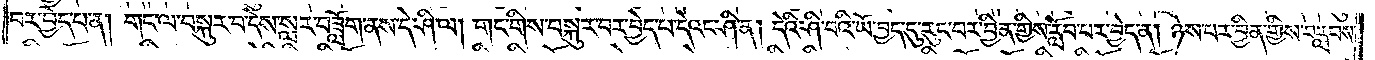པར་བྱེད་པ་ན། གང་ལ་བསྐུར་བ་དེས་སླར་བཟློག་ནས་དེ་ཤི་ལ། གང་གིས་བསྐུར་བར་བྱེད་པ་དེའང་ཤི་ན། དེའི་ཤི་བའི་ཡོ་བྱད་དུ་རུང་བར་བྱིན་གྱིས་རློབ་པར་བྱེད་ན། ཉེས་པར་བྱིན་གྱིས་བརླབས་
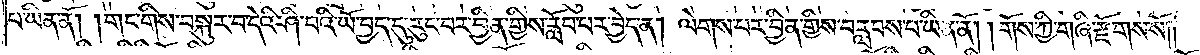པ་ཡིན་ནོ། །གང་གིས་བསྐུར་བ་དེའི་ཤི་བའི་ཡོ་བྱད་དུ་རུང་བར་བྱིན་གྱིས་རློབ་པར་བྱེད་ན། ལེགས་པར་བྱིན་གྱིས་བརླབས་པ་ཡིན་ནོ། །གོས་ཀྱི་གཞི་རྫོགས་སོ ༎
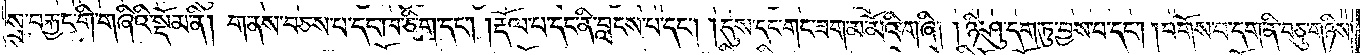སྲ་བརྐྱང་གི་གཞིའི་སྡོམ་ནི། གནས་བཅས་པ་དང་ཁ་ཅིག་དང༌། །རྡོལ་པ་དང་ནི་བླངས་པ་དང༌། །དུས་དང་གང་ཟག་མ་མོའི་གཞི། །ཉི་ཤུ་དག་ཏུ་བྱས་པ་དང༌། །བགོས་པ་དག་ནི་བཅུ་གཉིས་
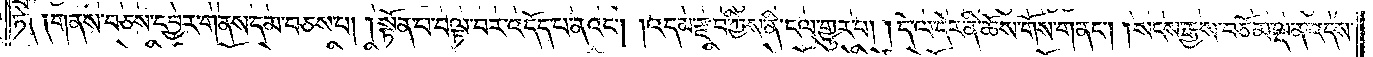ཏེ༑ ༑གནས་བཅས་དབྱར་གནས་དམ་བཅས་པ། །སྟོན་པ་བལྟ་བར་འདོད་པ་ནའང༌། །འདམ་རྫབ་ཀྱིས་ནི་ངལ་གྱུར་པ། །དེ་ལ་དེར་ནི་ཆོས་གོས་གནང༌། །སངས་རྒྱས་བཅོམ་ལྡན་འདས་
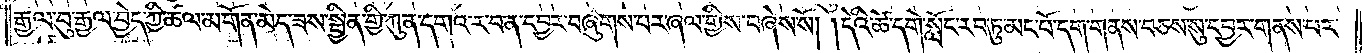རྒྱལ་བུ་རྒྱལ་བྱེད་ཀྱི་ཚལ་མགོན་མེད་ཟས་སྦྱིན་གྱི་ཀུན་དགའ་ར་བ་ན་དབྱར་བཞུགས་པར་ཞལ་གྱིས་བཞེས་སོ། །དེའི་ཚེ་དགེ་སློང་རབ་ཏུ་མང་པོ་དག་གནས་བཅས་སུ་དབྱར་གནས་པར་
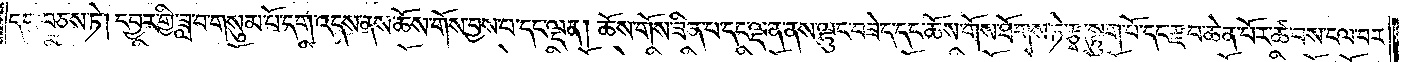དང་བཅས་ཏེ། དབྱར་གྱི་ཟླ་བ་གསུམ་པོ་དག་འདས་ནས་ཆོས་གོས་བྱས་པ་དང་ལྡན། ཆོས་གོས་ཟིན་པ་དང་ལྡན་ནས་ལྷུང་བཟེད་དང་ཆོས་གོས་ཐོགས་ཏེ་རྩྭ་སྟུག་པོ་དང་རྫབ་ཆེན་པོར་ཚ་བས་ངལ་བར་
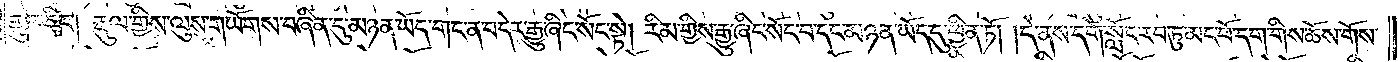གྱུར་ཅིང༌། རྡུལ་གྱིས་ལུས་གཡོགས་བཞིན་དུ་མཉན་ཡོད་གང་ན་བདེར་རྒྱུ་ཞིང་སོང་སྟེ། རིམ་གྱིས་རྒྱུ་ཞིང་སོང་བ་དང་མཉན་ཡོད་དུ་ཕྱིན་ཏོ། །དེ་ནས་དགེ་སློང་རབ་ཏུ་མང་པོ་དག་གིས་ཆོས་གོས་
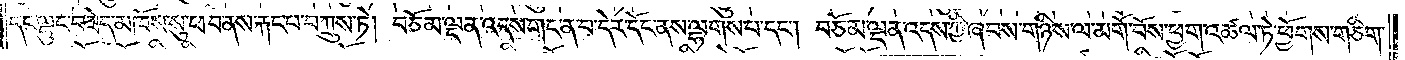དང་ལྷུང་བཟེད་མཁོས་སུ་ཕབ་ནས་རྐང་པ་བཀྲུས་ཏེ། བཅོམ་ལྡན་འདས་གང་ན་བ་དེར་དོང་ནས་ལྷགས་པ་དང༌། བཅོམ་ལྡན་འདས་ཀྱི་ཞབས་གཉིས་ལ་མགོ་བོས་ཕྱག་འཚལ་ཏེ་ཕྱོགས་གཅིག་
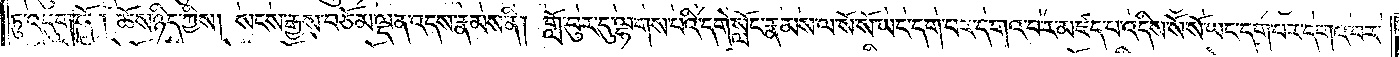ཏུ་འདུག་གོ །ཆོས་ཉིད་ཀྱིས། སངས་རྒྱས་བཅོམ་ལྡན་འདས་རྣམས་ནི། གློ་བུར་དུ་ལྷགས་པའི་དགེ་སློང་རྣམས་ལ་སོ་སོ་ཡང་དག་པར་དགའ་བར་མཛད་པ་འདིས་སོ་སོ་ཡང་དག་པར་དགའ་བར་
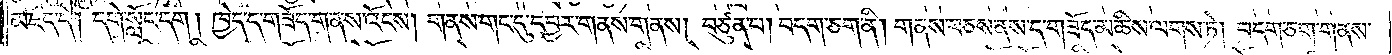མཛད་དེ། དགེ་སློང་དག །ཁྱེད་ད་གཟོད་གནས་འོངས། གནས་གང་དུ་དབྱར་གནས་གནས། བཙུན་པ། བདག་ཅག་ནི། གནས་བཅས་ནས་ད་གཟོད་མཆིས་ལགས་ཏེ། བདག་ཅག་གནས་
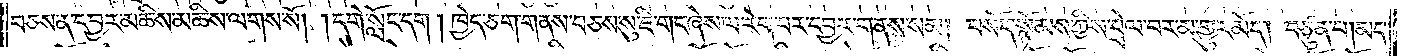བཅས་ན་དབྱར་མཆིས་མཆིས་ལགས་སོ། །དགེ་སློང་དག །ཁྱེད་ཅག་གནས་སུ་ཇི་གང་ཞེས་ལ་རེག་པར་དབྱར་གནས་སམ། བསོད་སྙོམས་ཀྱིས་བྲེལ་བར་མ་གྱུར་མོད། བཙུན་པ། མད་
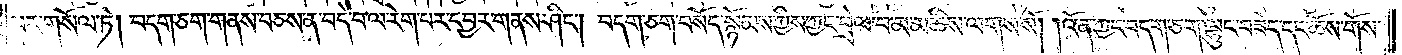པར་གསོལ་ཏོ། །བདག་ཅག་གནས་བཅས་ན་བདེ་བ་ལ་རེག་པར་དབྱར་གནས་ཤིང༌། བདག་ཅག་བསོད་སྙོམས་ཀྱིས་ཀྱང་བྲེལ་བ་མ་མཆིས་ལགས་སོ། །འོན་ཀྱང་བདག་ཅག་ལྷུང་བཟེད་དང་ཆོས་གོས་
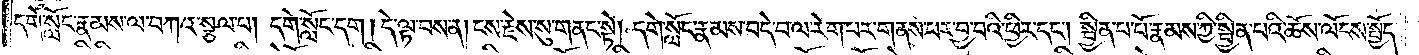དགེ་སློང་རྣམས་ལ་བཀའ་སྩལ་པ། དགེ་སློང་དག །དེ་ལྟ་བས་ན། ངས་རྗེས་སུ་གནང་སྟེ། དགེ་སློང་རྣམས་བདེ་བ་ལ་རེག་པར་གནས་པར་བྱ་བའི་ཕྱིར་དང༌། སྦྱིན་པ་པོ་རྣམས་ཀྱི་སྦྱིན་པའི་ཆོས་ལོངས་སྤྱོད་
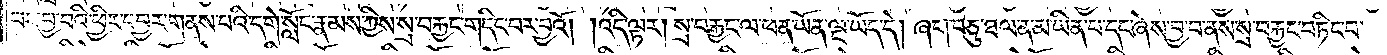པར་བྱ་བའི་ཕྱིར་དབྱར་གནས་པའི་དགེ་སློང་རྣམས་ཀྱིས་སྲ་བརྐྱང་གདིང་བར་བྱའོ། །འདི་ལྟར། སྲ་བརྐྱང་ལ་ཕན་ཡོན་ལྔ་ཡོད་དེ། ཞག་བཅུ་ཐལ་ན་མ་ཡིན་པ་དང་ཞེས་བྱ་བ་ནས་སྲ་བརྐྱང་བཏིང་བ་
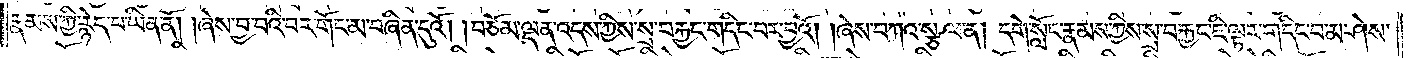རྣམས་ཀྱི་རྙེད་པ་ཡིན་ནོ། །ཞེས་བྱ་བའི་བར་གོང་མ་བཞིན་དུའོ། །བཅོམ་ལྡན་འདས་ཀྱིས་སྲ་བརྐྱང་གདིང་བར་བྱའོ། །ཞེས་བཀའ་སྩལ་ན། དགེ་སློང་རྣམས་ཀྱིས་སྲ་བརྐྱང་ཇི་ལྟར་གདིང་བ་མ་ཤེས་
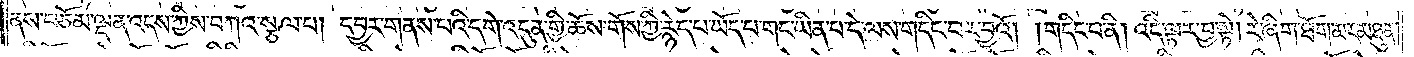ནས་བཅོམ་ལྡན་འདས་ཀྱིས་བཀའ་སྩལ་པ། དབྱར་གནས་པའི་དགེ་འདུན་གྱི་ཆོས་གོས་ཀྱི་རྙེད་པ་ཡོད་པ་གང་ཡིན་པ་དེ་ལས་གདིང་བར་བྱའོ། །གདིང་བ་ནི། འདི་ལྟར་བྱ་སྟེ། རེ་ཞིག་ཐོག་མར་མཐུན་
